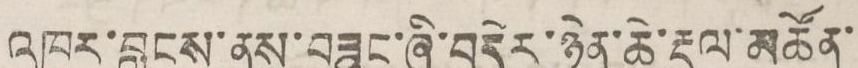འཁུར་བླངས་ནས་བཟུང་ཞི་བདེར་ཉིན་ཆེ་རྡུལ་མཚོན་
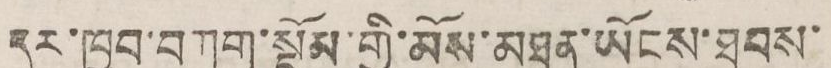དར་ཁྱབ་བཀག་སྡོམ་གྱི་མོས་མཐུན་ཡོངས་ཐབས་
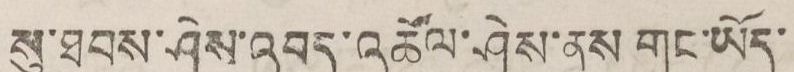སུ་ཐབས་ཤེས་འབད་འཚོལ་ཤེས་ནུས གང་ཡོད་
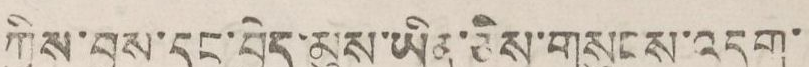ཀྱིས་བྱས་དང་བྱེད་མུས་ཡིན་ཅེས་གསུངས་འདུག་
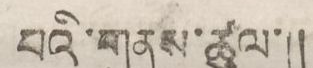པའི་གནས་ཚུལ་།།
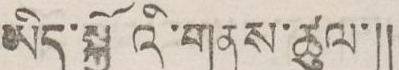ཡིད་སྐྱོའི་གནས་ཚུལ་།།
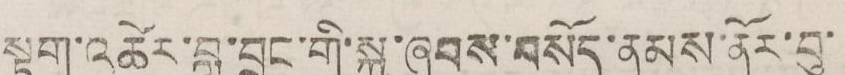སྟག་འཚེར་བླ་བྲང་གི་སྐུ་ཞབས་བསོད་ནམས་ནོར་བུ་
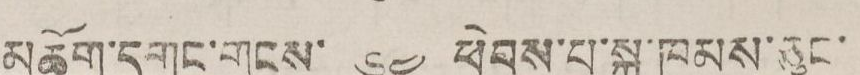མཆོག་དགུང་གྲངས་ ༦༤ ཕེབས་པ་སྐུ་ཁམས་ཅུང་
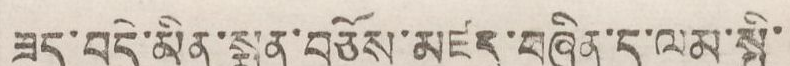ཟད་བདེ་མིན་སྨན་བཅོས་མཛད་བཞིན་ད་ལམ་སྤྱི་
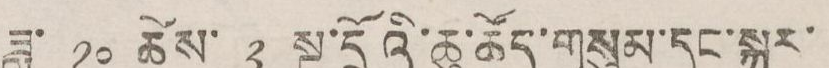ཟླ་ ༡༠ ཚེས་ ༢ སྔ་དྲོའི་ཆུ་ཚོད་གསུམ་དང་སྐར་
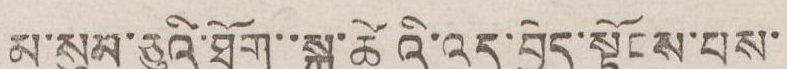མ་སུམ་ཅུའི་ཐོག་་སྐུ་ཚེའི་འདུ་བྱེད་སྟོངས་པས་
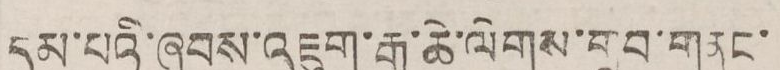དམ་པའི་ཞབས་འཇུག་རྒྱ་ཆེ་ལེགས་གྲུབ་གནང་
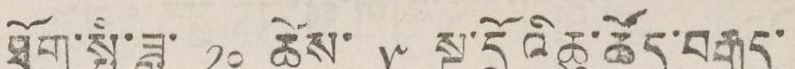ཐོག་སྤྱི་ཟླ་ ༡༠ ཚེས་ ༥ སྔ་དྲོའིཆུ་ཚོད་བརྒྱད་
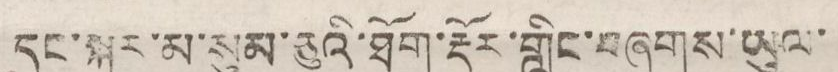དང་སྐར་མ་སུམ་ཅུའི་ཐོག་རྡོར་གླིང་བཞུགས་ཡུལ་
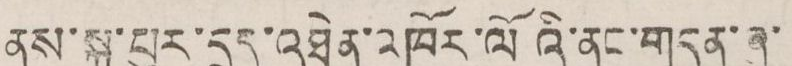ནས་སྐུ་པུར་དྲུད་འཐེན་འཁོར་ལོའི་ནང་གདན་ཞུ་
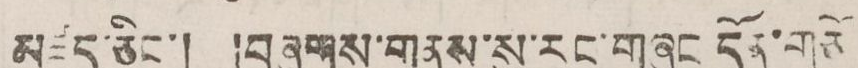མཛད་ཅིང་། །བཞུགས་གནས་སུ་རང་གཞུང དོན་གཙོ
